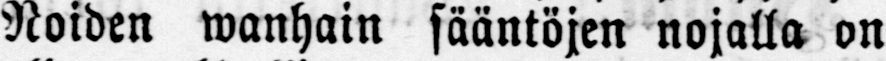Noiden wanhain sääntöjen nojalla on
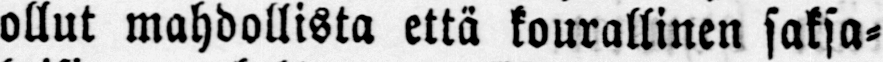ollut mahdollista että kourallinen saksa-
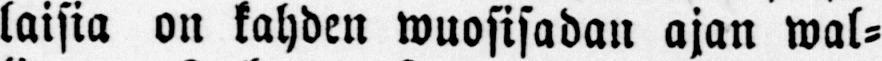laisia on kahden wuosisadan ajan wal-
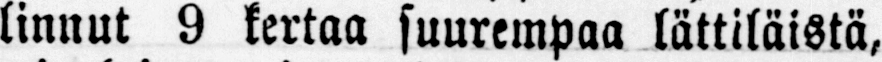linnut 9 kertaa suurempaa lättiläistä,
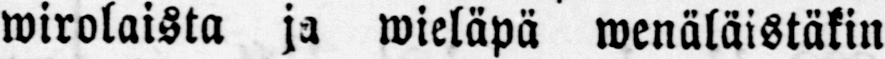wirolaista ja wieläpä wenäläistäkin
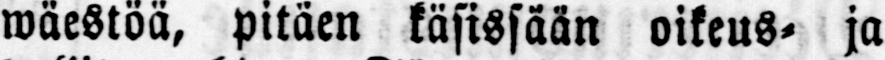wäestöä, pitäen käsissään oikeus- ja
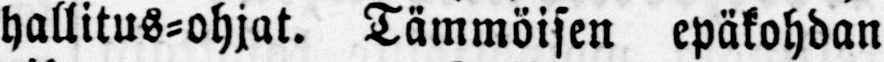hallitus-ohjat. Tämmöisen epäkohdan
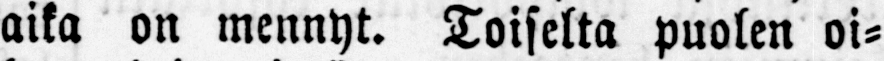aika on mennyt. Toiselta puolen oi-
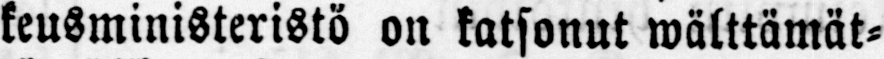keusministeristö on katsonut wälttämät-
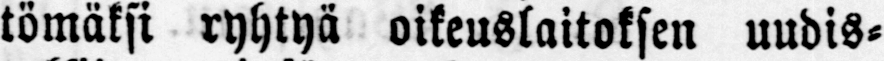tömäksi ryhtyä oikeuslaitoksen uudis-
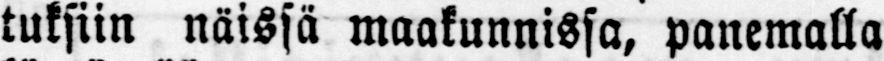tuksiin näissä maakunnissa, panemalla
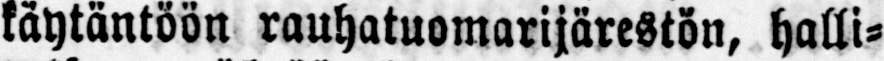käytäntöön rauhatuomarijärestön, halli-
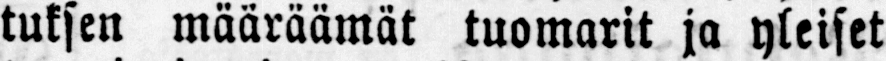tuksen määräämät tuomarit ja yleiset
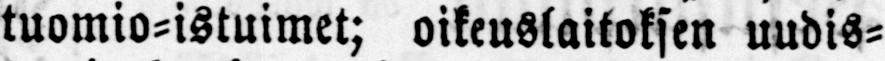tuomio-istuimet; oikeuslaitoksen uudis-
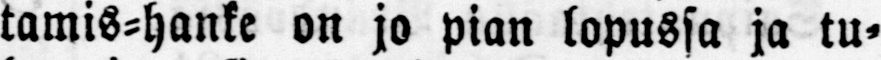tamis-hanke on jo pian lopussa ja tu-
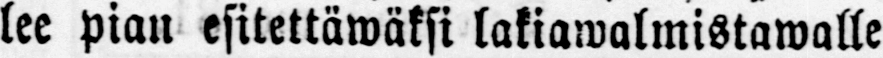lee pian esitettäwäksi lakiawalmistawalle
